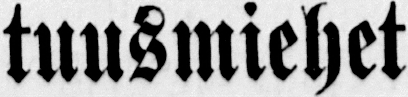tuusmiehet
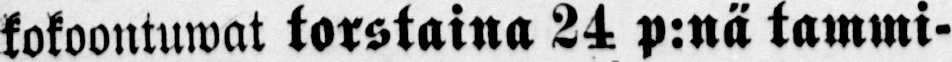kokoontuwat torstaina 24 p:nä tammi-
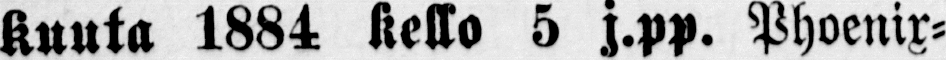kuuta 1884 kello 5 j.pp. Phoenix-
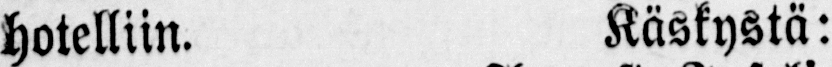hotelliin. Käskystä:
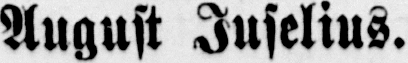August Juselius.
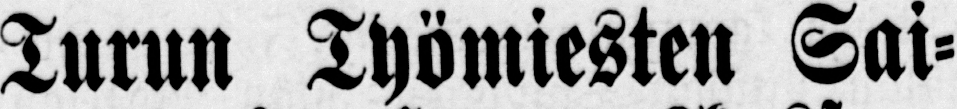Turun Työmiesten Sai-
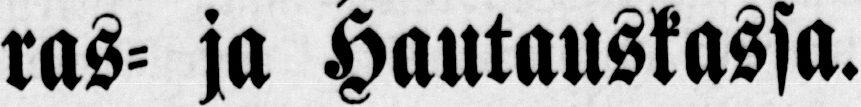ras- ja Hautauskassa.
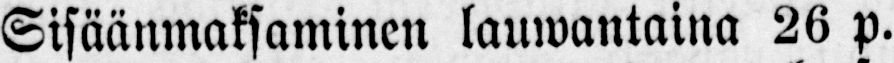Sisäänmaksaminen lauwantaina 26 p.
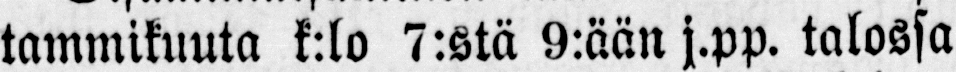tammikuuta k:lo 7:stä 9:ään j.pp. talossa
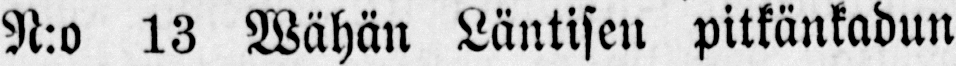N:o 13 Wähän Läntisen pitkänkadun
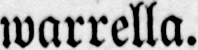warrella.
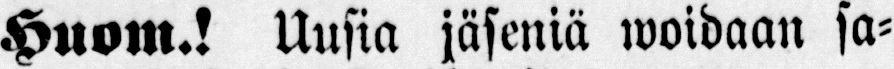Huom.! Uusia jäseniä woidaan sa-
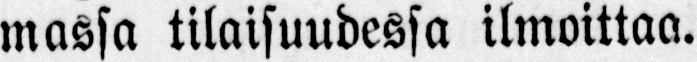massa tilaisuudessa ilmoittaa.
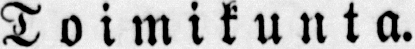Toimikunta.
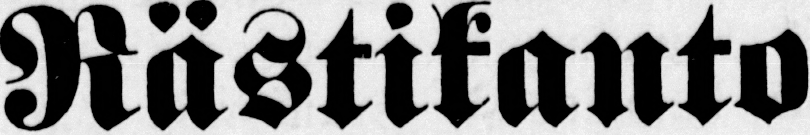Rästikanto
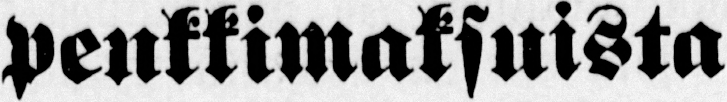penkkimaksuista
